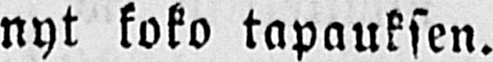nyt koko tapauksen.
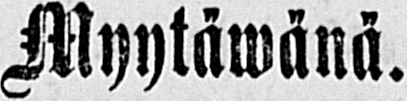Myytäwänä.
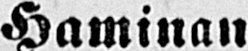Haminan,
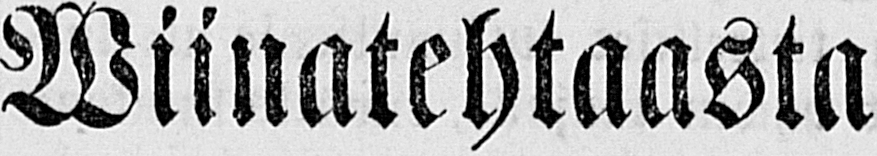Miinatehtaasta
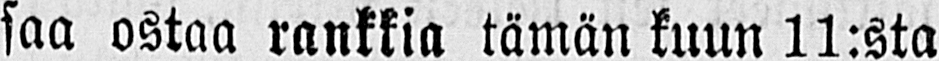saa ostaa rankkia tämän kuun 11 :sta
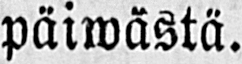päiwästä.
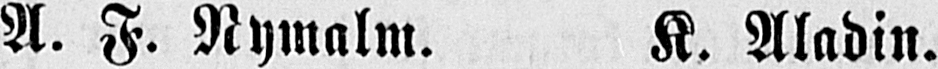A. F. Nymalm. K. Aladin.
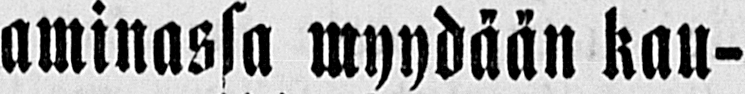Haminassa myydään kau-
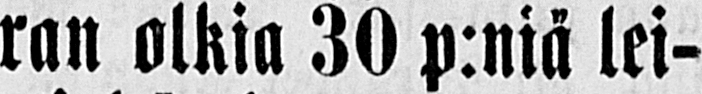ran olkia 30 p:niä lei-
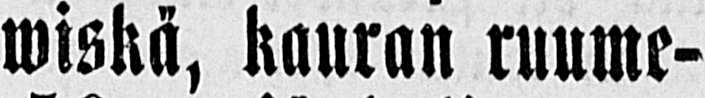wiskä, kauran ruume-
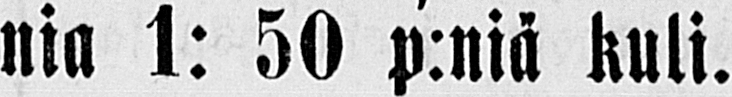nia 1:50 p:niä kuli.
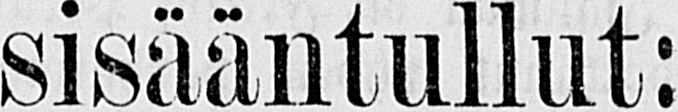Nyt sis ääntullut:
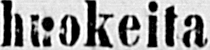huokeita
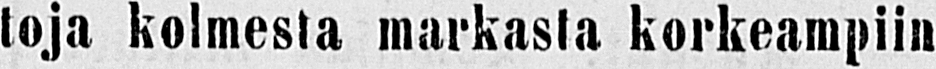toja kolmesta markasta korkeampiin
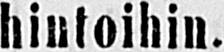hintoihin.
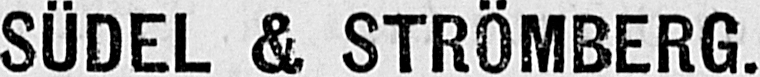SÜDEL & STRÖMBERG.
